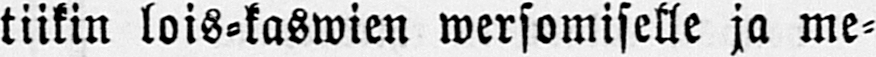tiikin lois-kaswien wersomiselle ja me-
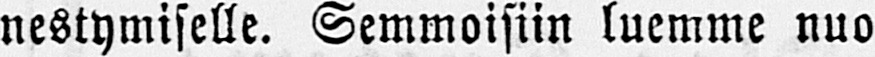nestymiselle. Semmoisiin luemme nuo
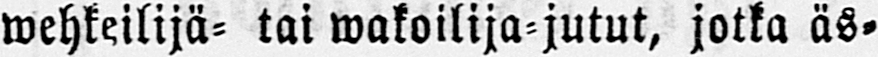wehkeilijä- tai wakoilija-jutut, jotka äs-
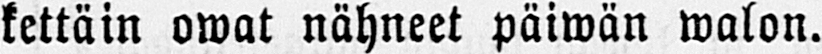kettäin owat nähneet päiwän walon.
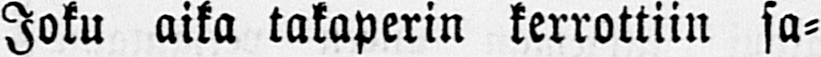Joku aika takaperin kerrottiin sa-
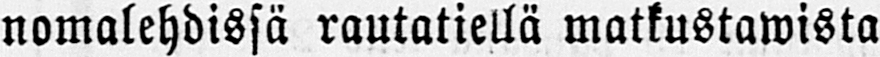nomalehdissä rautatiellä matkustamista
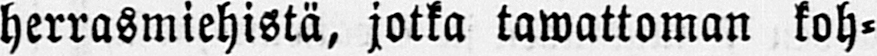herrasmiehistä, jotka tawattoman koh-
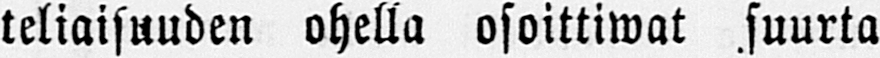teliaisuuden ohella osoittiwat suurta
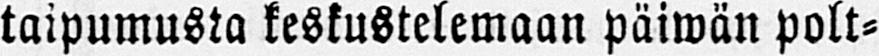taipumusta keskustelemaan päiwän polt-
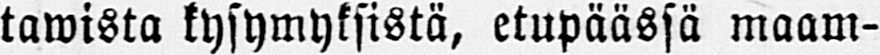tawista kysymyksistä, etupäässä maam-
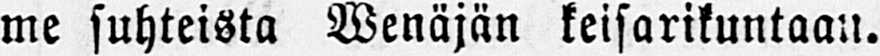me suhteista Wenäjän keisarikuntaan.
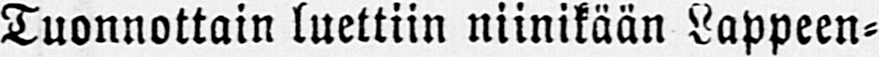Tuonnottain luettiin niinikään Lappeen-
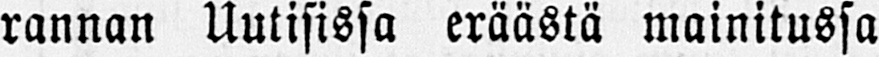rannan Uutisissa eräästä mainitussa
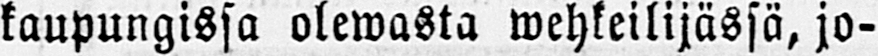kaupungissa olewasta wehkeilijässä, jo-
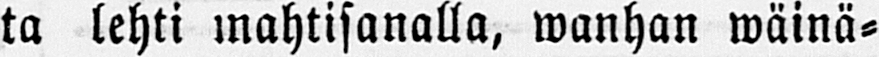ta lehti mahtisanalla, wanhan wäinä-
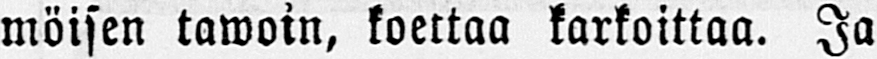möisen tawoin, koettaa tarkoittaa. Ja
